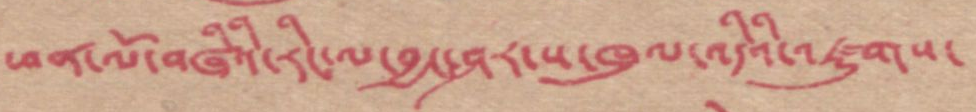ཕན་ལོ་བཞིའི་རིང་ལ་བྱང་ཤར་ས་ཁུལ་འདིའི་འཛུགས་
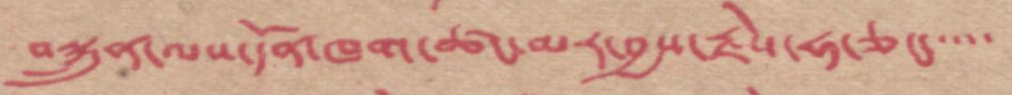བསྐྲུན་ལས་དོན་ཁག་ཚང་མར་བྱས་རྗེས་ཧ་ཅང་་་་
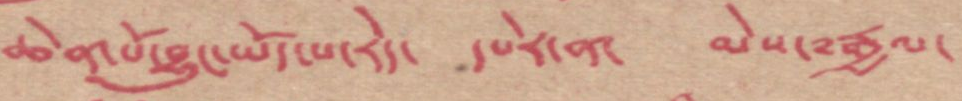ཆེན་པོ་བྱུང་ཡོད་པ་རེད་ དཔེར་ན་ མེས་༸རྒྱལ་
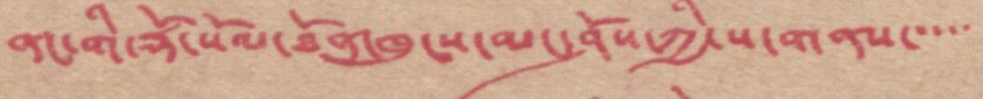ནང་གི་རྡོ་སོལ་ཐོན་ཁུངས་མང་ཤོས་ཀྱི་ས་གནས་་་་
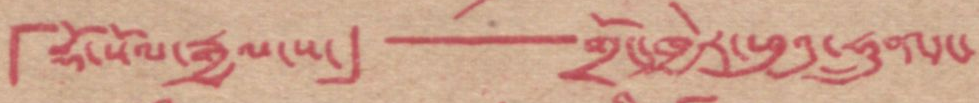རྡོ་སོལ་རྒྱལ་ས་」—གྲོང་ཁྱེར་ཕུའུ་ཧྲུན་དང་
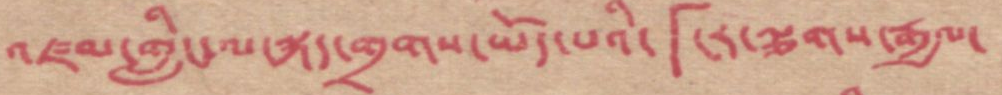འཛམ་གླིང་ལ་སྐད་གྲགས་ཡོད་པའི་「ངར་ལྕགས་རྒྱལ་
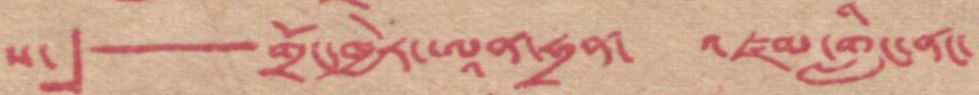ས་」—གྲོང་ཁྱེར་ཨཱན་ཧྲན་ འཛམ་གླིང་ནང་
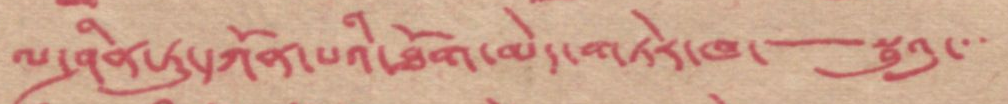ལ་ཤིན་ཏུ་དཀོན་པའི་ཐོག་མེད་གཏེར་ཁ་—སྦུའུ་་་
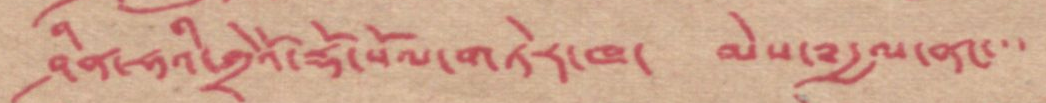ཤིན་ཧའི་ཀྲེའོ་རྡོ་སོལ་གཏེར་ཁ་ མེས་༸རྒྱལ་ནང་
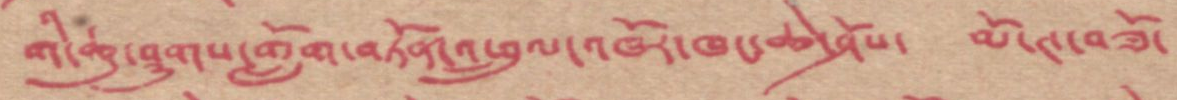གི་ཆུ་ཤུགས་གློག་བཏོན་འཕྲུལ་འཁོར་ཁང་ཆེ་ཤོས་ མོ་ཊ་བཟོ་
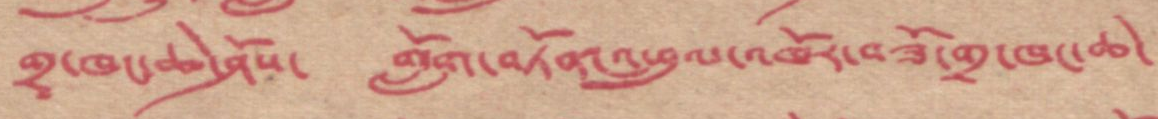གྲྭ་ཁང་ཆེ་ཤོས་ གློག་བཏོན་འཕྲུལ་འཁོར་བཟོ་གྲ་ཁང་ཆེ་
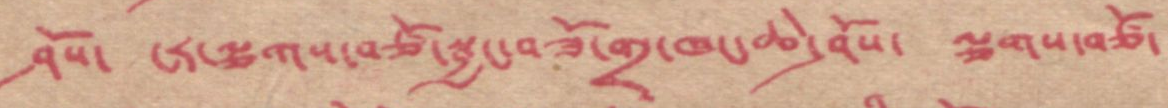ཤོས་ ངར་ལྕགས་བཙོ་སྦྱང་བཟོ་གྲྭ་ཁང་ཆེ་ཤོས་ ལྕགས་བཙོ་
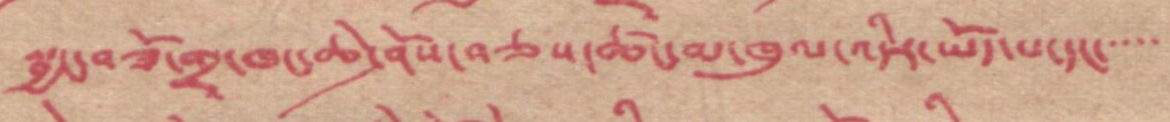སྦྱང་བཟོ་གྲྭ་ཁང་ཆེ་ཤོས་བཅས་ཚང་མ་ཁུལ་འདིར་ཡོད་པ་དང་་་་་
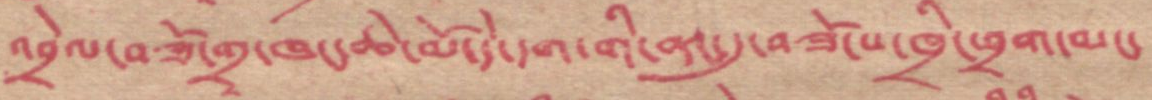འབྲེལ་བཟོ་གྲྭ་ཁང་ཆེ་མོ་དེ་དག་གི་ནང་དུ་བཟོ་པ་ཁྲི་ཕྲག་མང་
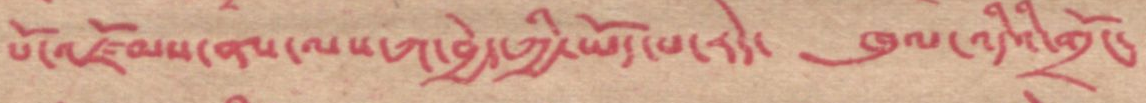པོ་འཛོམས་ནས་ལས་ཀ་བྱེད་ཀྱི་ཡོད་པ་རེད་ ཁུལ་འདིའི་གྲོང་
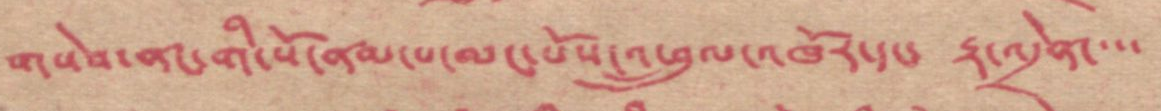གསེབ་ནང་གི་སོ་ནམ་པ་མང་པོས་འཕྲུལ་འཁོར་དང་ རྟ་འདྲེན་་་
